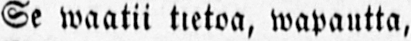Se waatii tietoa, wapautta,
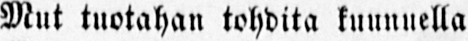Mut tuotahan tohdita kuunuella
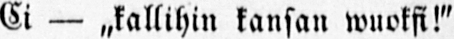Ei-„kallihin kansan wuokfi!"
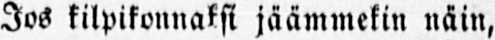Jos kilpikonnaksi jäämmekin näin,
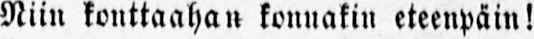Niin konttaahan konnakin eteenpäin!
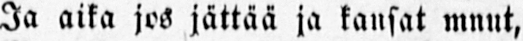Ja aika jos jättää ja kansat mnut,
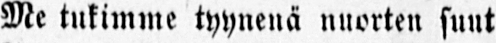Me tukimme tyynenä nuorten suut
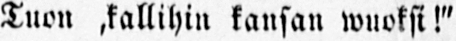Tuon ,kallihin kansan wuoksi!"
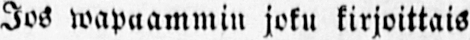Jos wapaammin joku kirjoittais
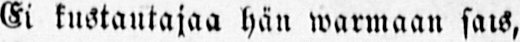Ei kustautajaa hän warmaan sais,
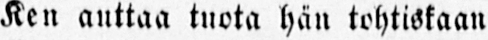Ken auttaa tuota hän tohtiskaan
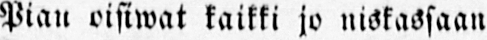Pian oisiwat kaikki jo niskassaan
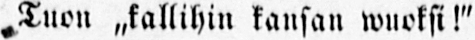Tuon „kallihin kansan wuoksi!"
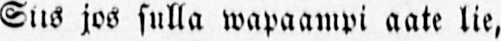Siis jos sulla wapaampi aate lie,
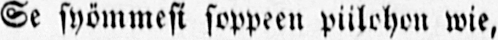Se syömmesi soppeen piilohon wie,
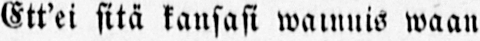Ett'ei sitä kansasi wainuis waan
